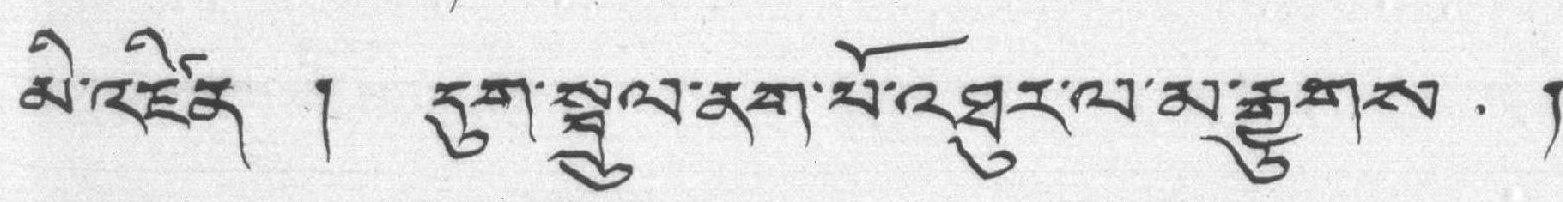མི་འཛིན ། དུག་སྦྲུལ་ནག་པོ་འཐུར་ལ་མ་རྒྱུགས །
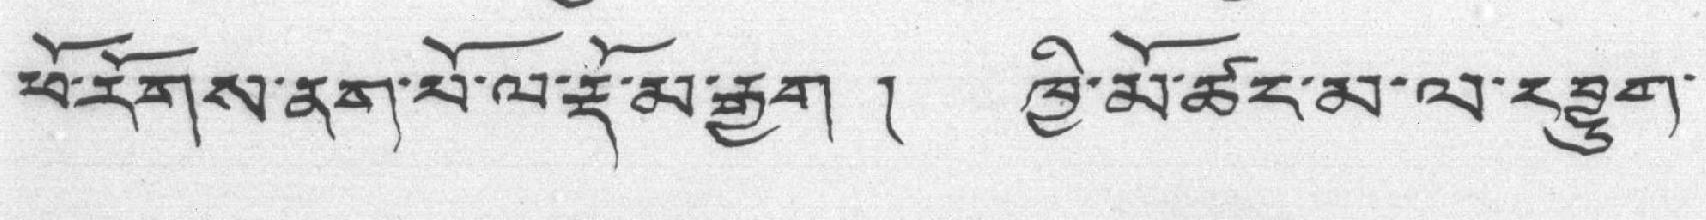ཕོ་རོགས་ནག་པོ་ལ་རྡོ་མ་རྒྱག ། ཁྱི་མོ་ཚང་མ་ལ་དབྱུག་
